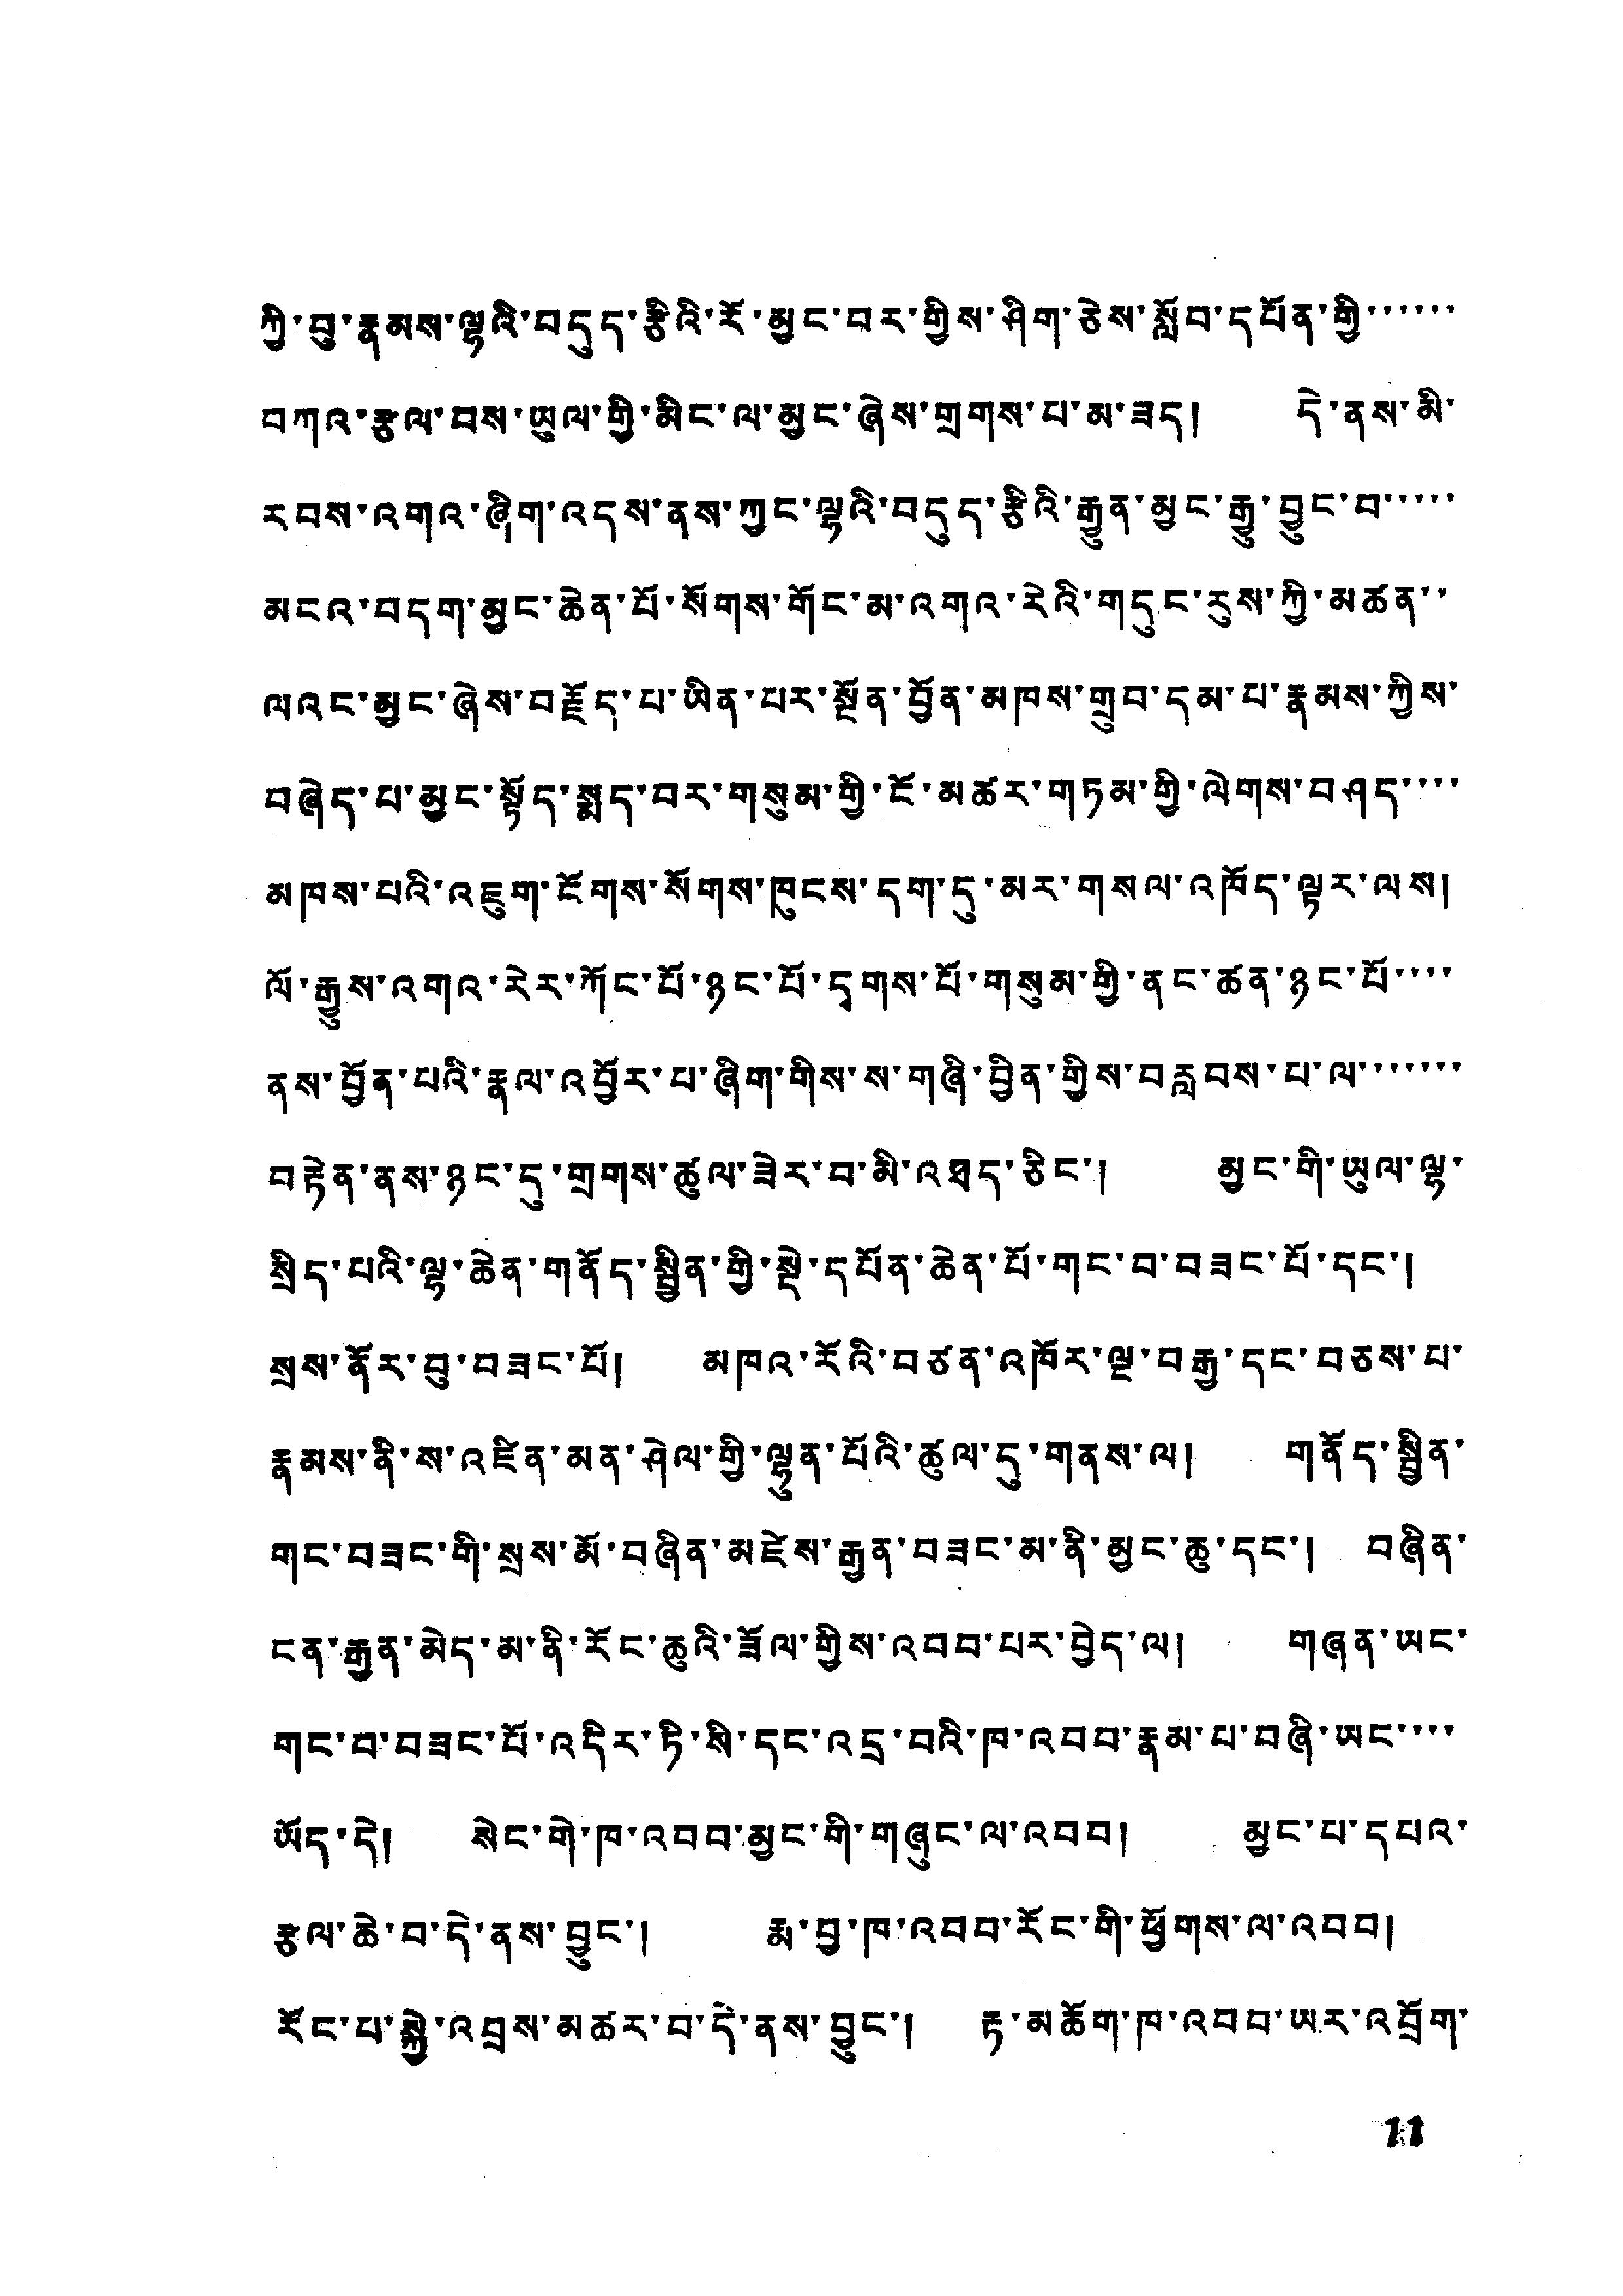ཀྱི་བུ་རྣམས་ལྷའི་བདུད་རྩིའི་རོ་མྱང་བར་གྱིས་ཤིག་ཅེས་སློབ་དཔོན་གྱི་་་་་་
བཀའ་རྩལ་བས་ཡུལ་གྱི་མིང་ལ་མྱང་ཞེས་གྲགས་པ་མ་ཟད། དེ་ནས་མི་
རབས་འགའ་ཞིག་འདས་ནས་ཀྱང་ལྷའི་བདུད་རྩིའི་རྒྱུན་མྱང་རྒྱ་བྱུང་བ་་་་་
མངའ་བདག་མྱང་ཆེན་པོ་སོགས་གོང་མ་འགའ་རེའི་གདུང་རུས་ཀྱི་མཚན་་
ལའང་མྱང་ཞེས་བརྗོད་པ་ཡིན་པར་སྔོན་བྱོན་མཁས་གྲུབ་དམ་པ་རྣམས་ཀྱིས་
བཞེད་པ་མྱང་སྟོད་སྨད་བར་གསུམ་གྱི་ངོ་མཚར་གཏན་གྱི་ལེགས་བཤད་་་་
མཁས་པའི་འཇུག་ངོགས་སོགས་ཁུངས་དག་དུ་མར་གསལ་འཁོད་ལྟར་ལས།
ལོ་རྒྱུས་འགའ་རེར་ཀོང་པོ་ཉང་པོ་དྭགས་པོ་གསུམ་གྱི་ནང་ཚན་ཉང་པོ་་་་
ནས་བྱོན་པའི་རྣལ་འབྱོར་པ་ཞིག་གིས་ས་གཞི་བྱིན་གྱིས་བརླབས་པ་ལ་་་་་་་
བརྟེན་ནས་ཉང་དུ་གྲགས་ཚུལ་ཟེར་བ་མི་འཐད་ཅིང་། མྱང་གི་ཡུལ་ལྷ་
སྲིད་པའི་ལྷ་ཆེན་གནོད་སྦྱིན་གྱི་སྡེ་དཔོན་ཆེན་པོ་གང་བ་བཟང་པོ་དང་།
སྲས་ནོར་བུ་བཟང་པོ། མཁའ་རོའི་བཙན་འཁོར་ལྔ་བརྒྱ་དང་བཅས་པ་
རྣམས་ནི་ས་འཛིན་མན་ཤེལ་གྱི་ལྷུན་པོའི་ཚུལ་དུ་གནས་ལ། གནོད་སྦྱིན་
གང་བཟང་གི་སྲས་མོ་བཞིན་མཛེས་རྒྱན་བཟང་མ་ནི་མྱང་ཆུ་དང་། བཞིན་
ངན་རྒྱན་མེད་མ་ནི་རོང་ཆུའི་ཟོལ་གྱིས་འབབ་པར་བྱེད་ལ། གཞན་ཡང་
གང་པ་བཟང་པོ་འདིར་ཏི་སི་དང་འདྲ་བའི་ཁ་འབབ་རྣམ་པ་བཞི་ཡང་་་་
ཡོད་དེ། སེང་གེ་ཁ་འབབ་མྱང་གི་གཞུང་ལ་འབབ། མྱང་པ་དཔའ་
རྩལ་ཆེ་བ་དེ་ནས་བྱུང་། རྨ་བྱ་ཁ་འབབ་རོང་གི་ཕྱོགས་ལ་འབབ།
རོང་པ་སྐྱེ་འབྲས་མཚར་བ་དེ་ནས་བྱུང་། རྟ་མཆོག་ཁ་འབབ་ཡར་འབྲོག་
11
